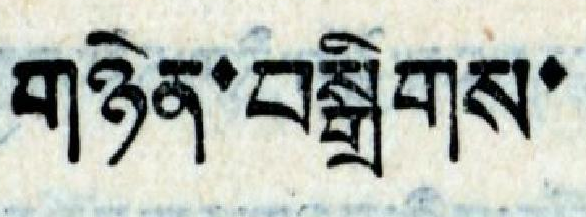གཉེན་བསྒྲིགས་
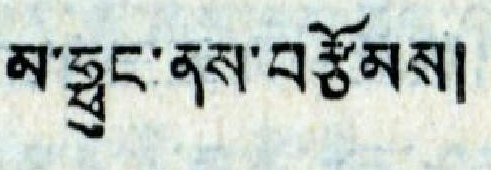མ་ཧྥུང་ནས་བརྩོམས།
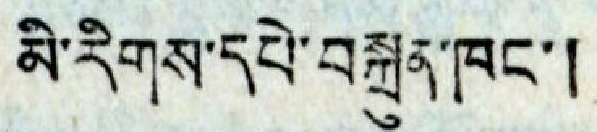མི་རིགས་དཔེ་བསྐྲུན་ཁང་།
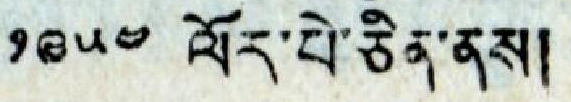༡༩༥༤ ལོར་པེ་ཅིན་ནས།
